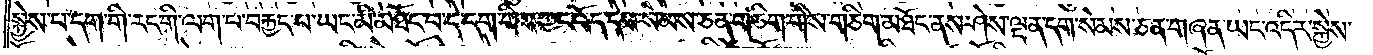སྐྱེས་པ་དག་གི་རང་གི་ལག་པ་བརྐྱང་པ་ཡང་མི་མཐོང་བ་དེ་དག་གིས་ཀྱང་འོད་དེས་སེམས་ཅན་གཅིག་གིས་གཅིག་མཐོང་ནས་ཤེས་ལྡན་དག་སེམས་ཅན་གཞན་ཡང་འདིར་སྐྱེས་
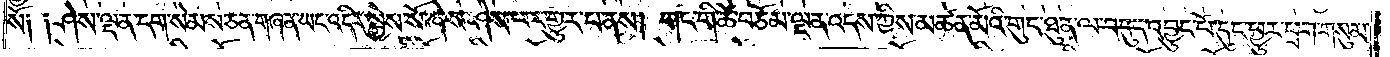སོ༑ ༑ཤེས་ལྡན་དག་སེམས་ཅན་གཞན་ཡང་འདིར་སྐྱེས་སོ་ཞེས་ཤེས་པར་གྱུར་པ་ནས། གང་གི་ཚེ་བཅོམ་ལྡན་འདས་ཀྱིས་མཚན་མོའི་གུང་ཐུན་ལ་བདུད་འབྱུང་པོ་དུང་ཕྱུར་ཕྲག་གསུམ་
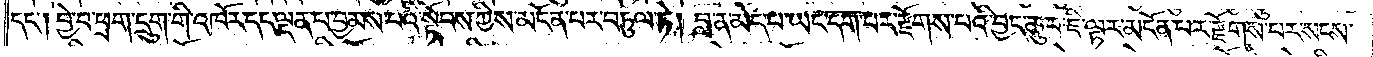དང༌། བྱེ་བ་ཕྲག་དྲུག་གི་འཁོར་དང་ལྡན་པ་བྱམས་པའི་སྟོབས་ཀྱིས་མངོན་པར་བཏུལ་ཏེ། བླ་ན་མེད་པ་ཡང་དག་པར་རྫོགས་པའི་བྱང་ཆུབ་ཇི་ལྟར་མངོན་པར་རྫོགས་པར་སངས་
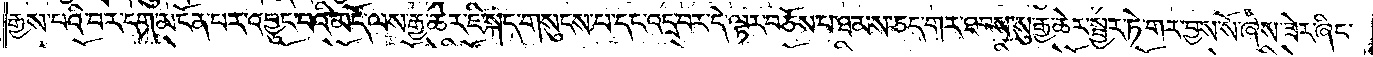རྒྱས་པའི་བར་དག་མངོན་པར་འབྱུང་བའི་མདོ་ལས་རྒྱ་ཆེར་ཇི་སྐད་གསུངས་པ་དང་འདྲ་བར་དེ་ལྟར་བཅོས་པ་ཐམས་ཅད་གར་ཐབས་སུ་རྒྱ་ཆེར་སྦྱར་ཏེ་གར་བྱས་སོ་ཞེས་ཟེར་ཞིང་
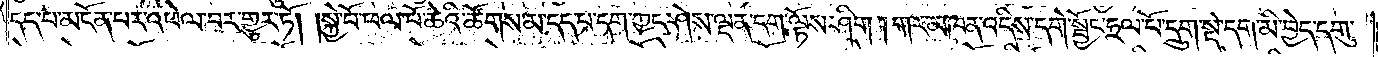དད་པ་མངོན་པར་འཕེལ་བར་གྱུར་ཏོ། །སྐྱེ་བོ་ཕལ་པོ་ཆེའི་ཚོགས་མ་དད་པ་དག་ཀྱང་ཤེས་ལྡན་དག་ལྟོས་ཤིག །གར་མཁན་འདིས་དགེ་སྦྱོང་ཧྲལ་པོ་དྲུག་སྡེ་དག་མི་བྱེད་དགུ་
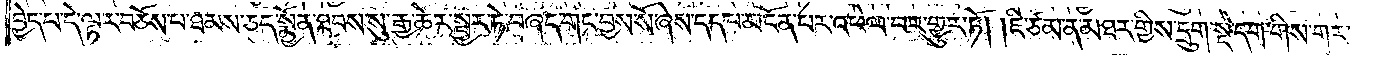བྱེད་པ་དེ་ལྟར་བཅོས་པ་ཐམས་ཅད་སྨྱོན་ཐབས་སུ་རྒྱ་ཆེར་སྦྱར་ཏེ་བཞད་གང་བྱས་སོ་ཞེས་དད་པ་མངོན་པར་འཕེལ་བར་གྱུར་ཏོ། །ཇི་ཙམ་ན་མཐར་གྱིས་དྲུག་སྡེ་དག་གིས་གར་
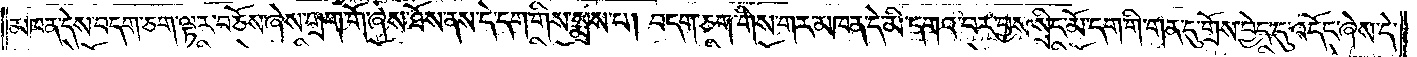མཁན་དེས་བདག་ཅག་ལྟར་བཅོས་ཞེས་གྲག་གོ་ཞེས་ཐོས་ནས་དེ་དག་གིས་སྨྲས་པ། བདག་ཅག་གིས་གར་མཁན་དེ་མི་དགའ་བར་བྱས་སྲིང་མོ་དག་གི་གན་དུ་གྲོས་བྱེད་དུ་འདོང་ཞེས་དེ་
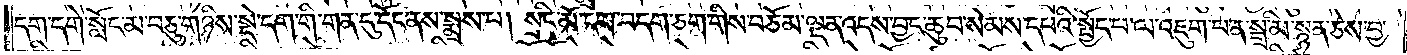དག་དགེ་སློང་མ་བཅུ་གཉིས་སྡེ་དག་གི་གན་དུ་དོང་ནས་སྨྲས་པ། སྲིང་མོ་དག་བདག་ཅག་གིས་བཅོམ་ལྡན་འདས་བྱང་ཆུབ་སེམས་དཔའི་སྤྱོད་པ་ལ་འཇུག་པ་ན་སྒྲ་མི་སྙན་ཅེས་བྱ་
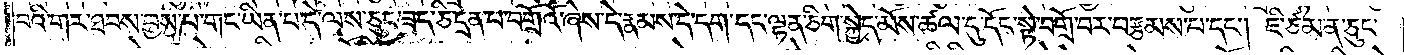བའི་གར་ཐབས་བྱས་པ་གང་ཡིན་པ་དེ་ལས་ཅུང་ཟད་ཅི་དྲན་པ་བགྲོའོ་ཞེས་དེ་རྣམས་དེ་དག་དང་ལྷན་ཅིག་སྐྱེད་མོས་ཚལ་དུ་དོང་སྟེ་བགྲོ་བར་བརྩམས་པ་དང༌། ཇི་ཙམ་ན་ཅུང་
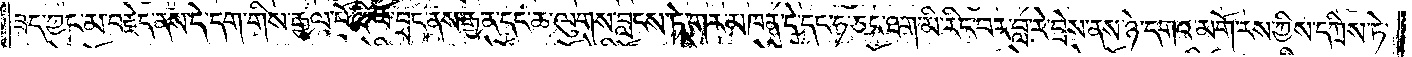ཟད་ཀྱང་མ་བརྗེད་ནས་དེ་དག་གིས་རྒྱལ་པོའི་ཕོ་བྲང་ནས་རྒྱན་དང་ཆ་ལུགས་བླངས་ཏེ་གར་མཁན་དེ་དང་ཧ་ཅང་ཐག་མི་རིང་བར་བླ་རེ་བྲེས་ནས་ཉེ་དགའ་མགོ་རས་ཀྱིས་དཀྲིས་ཏེ་
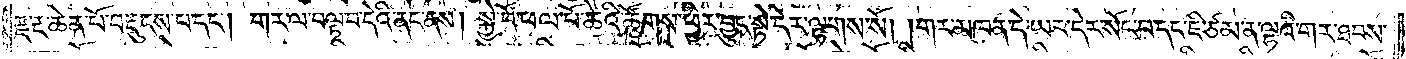རྫ་རྔ་ཆེན་པོ་བརྡུངས་པ་དང༌། གར་ལ་བལྟ་བ་དེའི་ནང་ནས། སྐྱེ་བོ་ཕལ་པོ་ཆེའི་ཚོགས་ཕྱིར་བྱུང་སྟེ་དེར་ལྷགས་སོ། །གར་མཁན་དེ་ཡང་དེར་སོང་བ་དང་ཇི་ཙམ་ན་ལྷའི་གར་ཐབས་
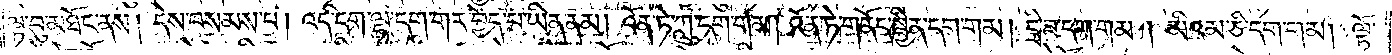ལྟ་བུ་མཐོང་ནས། དེས་བསམས་པ། འདི་དག་ལྷ་དག་གར་བྱེད་པ་ཡིན་ནམ། འོན་ཏེ་ཀླུ་དག་གམ། འོན་ཏེ་གནོད་སྦྱིན་དག་གམ། དྲི་ཟ་དག་གམ། མིའམ་ཅི་དག་གམ། ལྟོ་
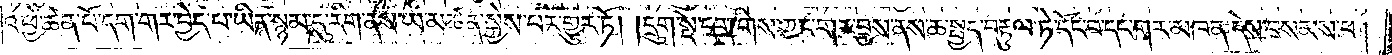འཕྱེ་ཆེན་པོ་དག་གར་བྱེད་པ་ཡིན་སྙམ་དུ་རིག་ནས་ཡ་མཚན་སྐྱེས་པར་གྱུར་ཏོ། །དྲུག་སྡེ་དག་གིས་ཀྱང་གར་བྱས་ནས་ཆ་སྤྱད་བརྟུལ་ཏེ་དོང་བ་དང་གར་མཁན་དེས་བསམས་པ།
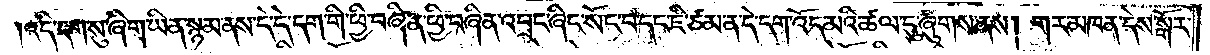འདི་དག་སུ་ཞིག་ཡིན་སྙམ་ནས་དེ་དེ་དག་གི་ཕྱི་བཞིན་ཕྱི་བཞིན་འབྲང་ཞིང་སོང་བ་དང་ཇི་ཙམ་ན་དེ་དག་འོད་མའི་ཚལ་དུ་ཞུགས་ནས། གར་མཁན་དེས་སྒོར་
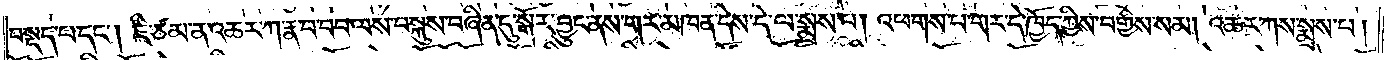བསྡད་པ་དང༌། ཇི་ཙམ་ན་འཆར་ཀ་རྣ་བ་བབ་ལས་བསྐུས་བཞིན་དུ་སྒོར་བྱུང་ནས་གར་མཁན་དེས་དེ་ལ་སྨྲས་པ། འཕགས་པ་གར་དེ་ཁྱོད་ཀྱིས་བགྱིས་སམ། འཆར་ཀས་སྨྲས་པ།
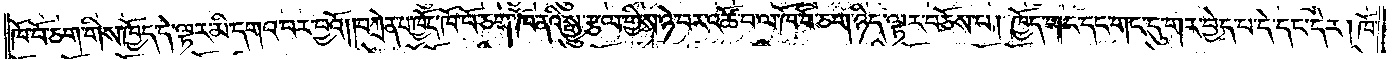ཁོ་བོ་ཅག་གིས་ཁྱོད་དེ་ལྟར་མི་དགའ་བར་བྱའོ། །བཀྲེན་པ་ཁྱོད་ཁོ་བོ་ཅག་ཁོ་ནའི་སྒྱུ་རྩལ་གྱིས་ཉེ་བར་འཚོ་བ་ལ་ཁོ་བོ་ཅག་ཉིད་ལྟར་བཅོས་པ། ཁྱོད་གང་དང་གང་དུ་གར་བྱེད་པ་དེ་དང་དེར། ཁོ་
